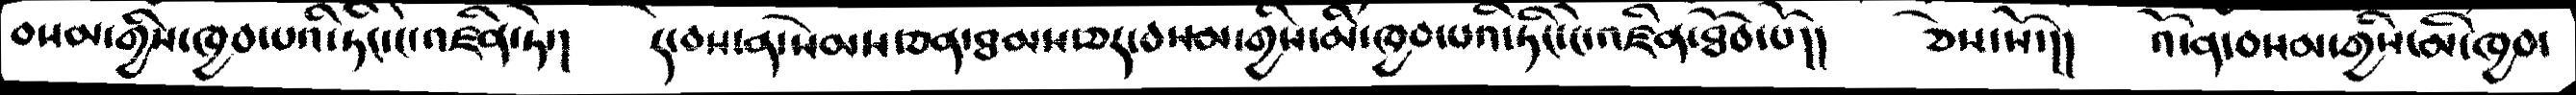བསམ་གྱིས་ཁྱབ་པའི་ཏིང་ངེ་འཛིན་ཏེ་།   དེ་བས་ན་སེམས་ཅན་ཐམས་ཅད་བསམ་གྱིས་མི་ཁྱབ་པའི་ཏིང་ངེ་འཛིན་ཐོབ་པོ།།    ཅེས་སོ་།།   འོ་ན་བསམ་གྱིས་མི་ཁྱབ་
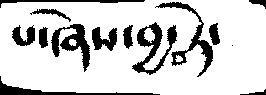པ་ཞེས་བྱ་བ་ཏེ་
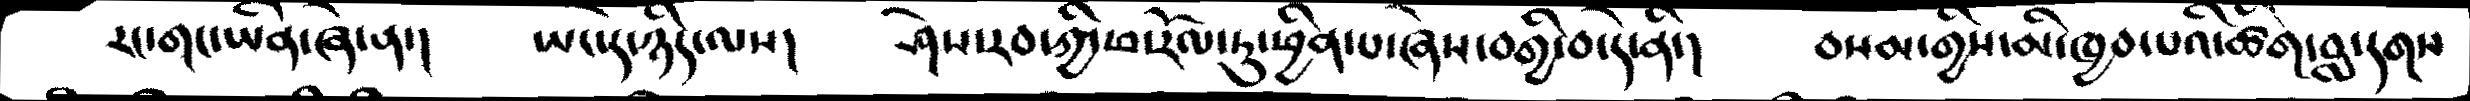རང་གང་ཡིན་ཞེ་ན་།     ཡང་དེ་ཉིད་ལས།    ཤེས་རབ་ཀྱི་ཕ་རོལ་ཏུ་ཕྱིན་པ་ཞེས་བགྱིབ་དེ་ནི་།    བསམ་གྱིས་མི་ཁྱབ་པའི་ཚིག་བླ་དགས
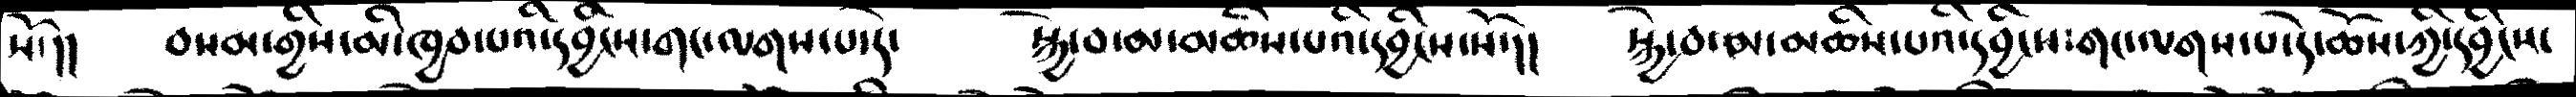སོ་།།   བསམ་གྱིས་མི་ཁྱབ་པའི་དབྱིངས་གང་ལགས་པ་དེ་    སྐྱེ་བ་མ་མཆིས་པའི་དབྱིངས་སོ་།།   སྐྱེ་བ་མ་མཆིས་པའི་དབྱིངས་གང་ལགས་པ་དེ་ཆོས་ཀྱི་དབྱིངས་
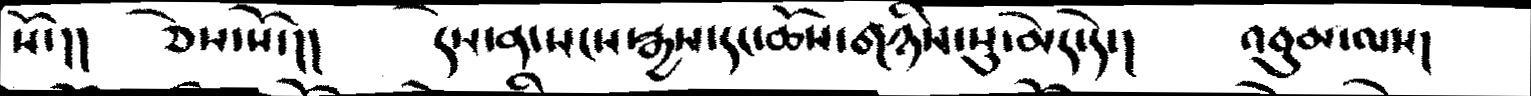སོ་།།   ཅེས་སོ་།།    དེས་ན་སངས་རྒྱས་དང་ཆོས་གཉིས་སུ་མེད་དེ་།    འབུམ་ལས།
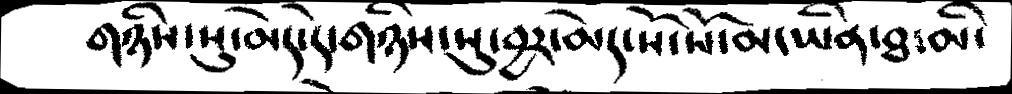གཉིས་སུ་མེད་དེ་གཉིས་སུ་བྱར་མེད་སོ་སོ་མ་ཡིན་ཐ་མི་
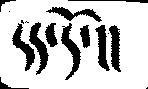དད་དོ་།།
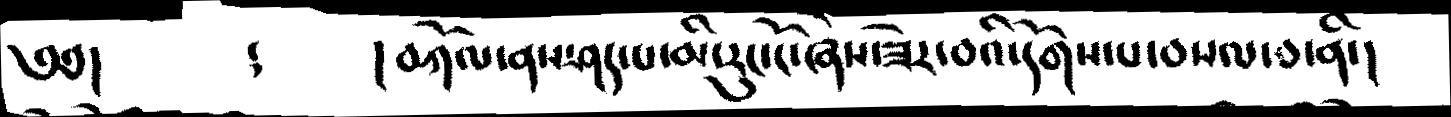༄༅།    །   །བཀོལ་ནས་ཤད་པ་མི་རུང་ངོ་ཞེས་ཟེར་བའི་དོགས་པ་བསལ་བ་ནི་།
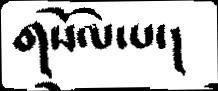གསོལ་པ་།
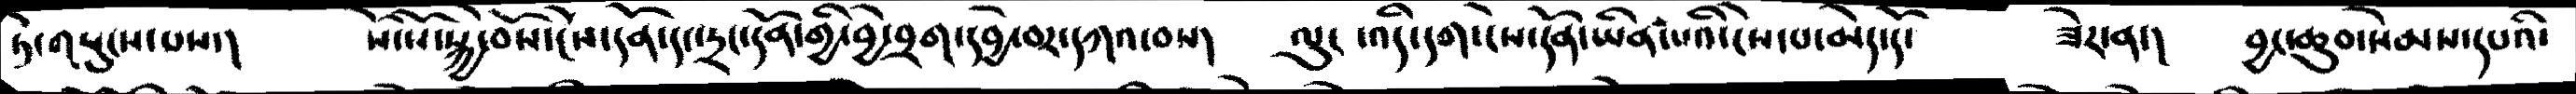ཏེ་གསུངས་པས་།     སོ་སོ་སྐྱེ་བོས་ངེས་དོན་དང་ཏྲང་དོན་གྱི་བྱེ་བྲག་དབྱེ་བར་དཀའ་བས།   ལུང་འདི་དག་ངེས་དོན་ཡིན་པའི་ངེས་པ་མེད་དོ་     ཟེར་ན་།   བྱང་ཆུབ་སེམས་དཔའི་
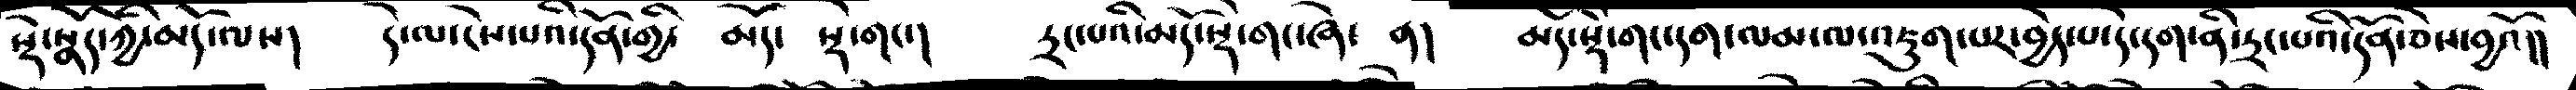སྟེ་སྣོད་ཀྱི་མདོ་ལས།   དེ་ལ་ངེས་པའི་དོན་གྱི་  མདོ་  སྟེ་གང་།    ཏྲང་པའི་མདོ་སྟེ་གང་ཞེ་  ན།   མདོ་སྡེ་གང་དག་ལམ་ལ་འཇུག་པར་བྱེད་པ་དེ་དག་ནི་ཏྲང་པའི་དོན་ཅེས་བྱའོ་།།
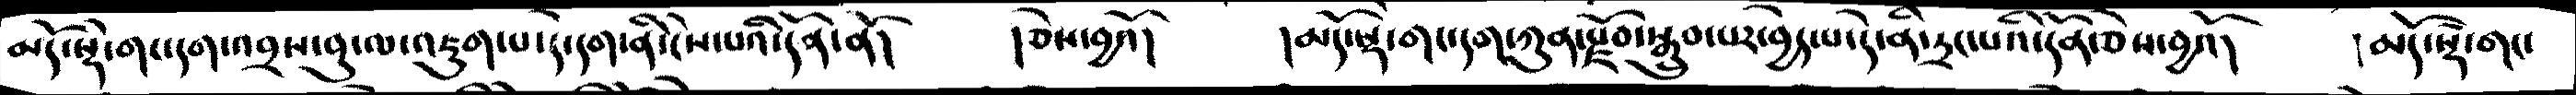མདོ་སྡེ་གང་དག་འབྲས་བུ་ལ་འཇུག་པ་དེ་དག་ནི་ངེས་པའི་དོན་ནོ།    །ཅེས་བྱའོ།     །མདོ་སྡེ་གང་དག་ཀུན་སྫོབ་སྒྲུབ་པར་བྱེད་པ་དེ་ནི་ཏྲང་པའི་དོན་ཅེས་བྱོའ།    །མདོ་སྡེ་གང་
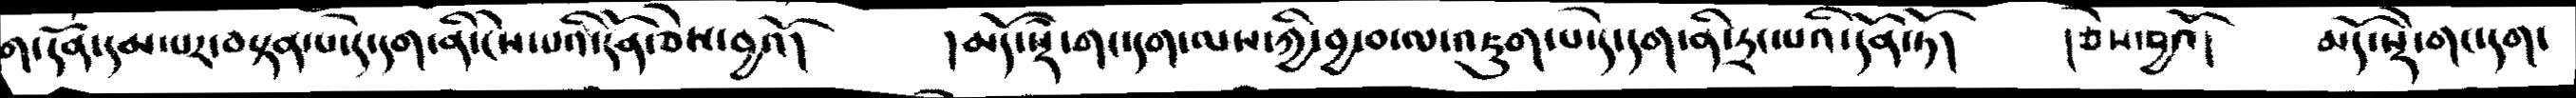ག་དོན་དམ་པར་བསྟན་པ་དེ་དག་ནི་ངེས་པའི་དོན་ཅེས་བྱའོ།   །མདོ་སྡེ་གང་དག་ལས་ཀྱི་བྱ་བ་ལ་འཇུག་པ་དེ་དག་ན་དྲང་པའི་དོན་ཏོ།    །ཅེས་བྱའོ།   མདོ་སྡེ་གང་དག་
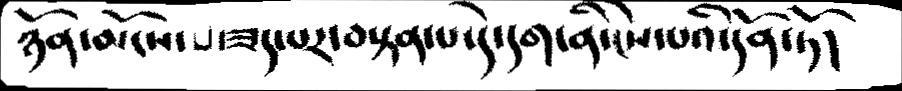ཉོན་མོངས་པ་ཟད་པར་བསྟན་པ་དེ་དག་ནི་ངེས་པའི་དོན་ཏོ།
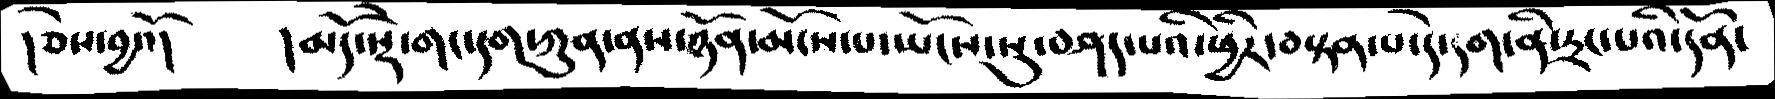།ཅེས་བྱའོ།    །མདོ་སྡེ་གང་དག་ཀུན་ནས་ཉོན་མོངས་པ་ཡོངས་སུ་བཤད་པའི་ཕྱིར་བསྟན་པ་དེ་དག་ནི་དྲང་པའི་དོན་
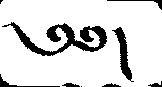༄༅།
